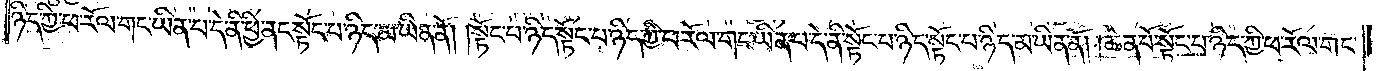ཉིད་ཀྱི་ཕ་རོལ་གང་ཡིན་པ་དེ་ནི་ཕྱི་ནང་སྟོང་པ་ཉིད་མ་ཡིན་ནོ། །སྟོང་པ་ཉིད་སྟོང་པ་ཉིད་ཀྱི་ཕ་རོལ་གང་ཡིན་པ་དེ་ནི་སྟོང་པ་ཉིད་སྟོང་པ་ཉིད་མ་ཡིན་ནོ། །ཆེན་པོ་སྟོང་པ་ཉིད་ཀྱི་ཕ་རོལ་གང་
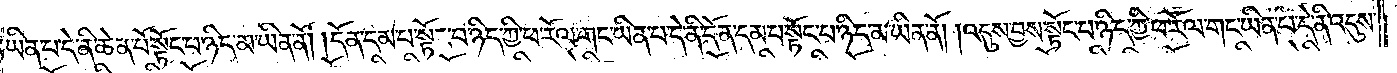ཡིན་པ་དེ་ནི་ཆེན་པོ་སྟོང་པ་ཉིད་མ་ཡིན་ནོ། །དོན་དམ་པ་སྟོང་པ་ཉིད་ཀྱི་ཕ་རོལ་གང་ཡིན་པ་དེ་ནི་དོན་དམ་པ་སྟོང་པ་ཉིད་མ་ཡིན་ནོ། །འདུས་བྱས་སྟོང་པ་ཉིད་ཀྱི་ཕ་རོལ་གང་ཡིན་པ་དེ་ནི་འདུས་
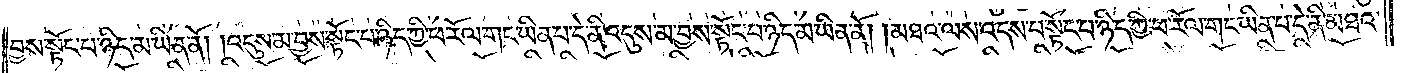བྱས་སྟོང་པ་ཉིད་མ་ཡིན་ནོ། །འདུས་མ་བྱས་སྟོང་པ་ཉིད་ཀྱི་ཕ་རོལ་གང་ཡིན་པ་དེ་ནི་འདུས་མ་བྱས་སྟོང་པ་ཉིད་མ་ཡིན་ནོ། །མཐའ་ལས་འདས་པ་སྟོང་པ་ཉིད་ཀྱི་ཕ་རོལ་གང་ཡིན་པ་དེ་ནི་མཐའ་
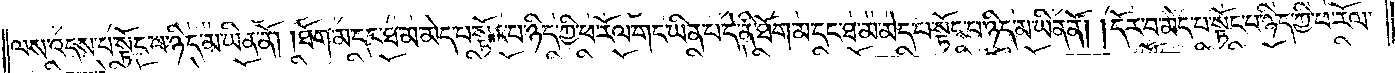ལས་འདས་པ་སྟོང་པ་ཉིད་མ་ཡིན་ནོ། །ཐོག་མ་དང་ཐ་མ་མེད་པ་སྟོང་པ་ཉིད་ཀྱི་ཕ་རོལ་གང་ཡིན་པ་དེ་ནི་ཐོག་མ་དང་ཐ་མ་མེད་པ་སྟོང་པ་ཉིད་མ་ཡིན་ནོ། །དོར་བ་མེད་པ་སྟོང་པ་ཉིད་ཀྱི་ཕ་རོལ་
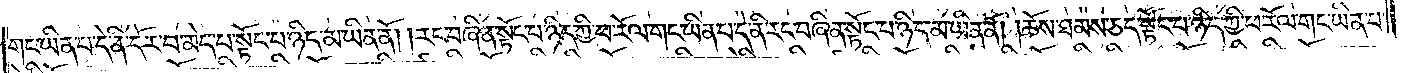གང་ཡིན་པ་དེ་ནི་དོར་བ་མེད་པ་སྟོང་པ་ཉིད་མ་ཡིན་ནོ། །རང་བཞིན་སྟོང་པ་ཉིད་ཀྱི་ཕ་རོལ་གང་ཡིན་པ་དེ་ནི་རང་བཞིན་སྟོང་པ་ཉིད་མ་ཡིན་ནོ། །ཆོས་ཐམས་ཅད་སྟོང་པ་ཉིད་ཀྱི་ཕ་རོལ་གང་ཡིན་པ་
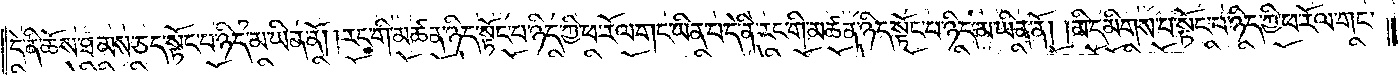དེ་ནི་ཆོས་ཐམས་ཅད་སྟོང་པ་ཉིད་མ་ཡིན་ནོ། །རང་གི་མཚན་ཉིད་སྟོང་པ་ཉིད་ཀྱི་ཕ་རོལ་གང་ཡིན་པ་དེ་ནི་རང་གི་མཚན་ཉིད་སྟོང་པ་ཉིད་མ་ཡིན་ནོ། །མི་དམིགས་པ་སྟོང་པ་ཉིད་ཀྱི་ཕ་རོལ་གང་
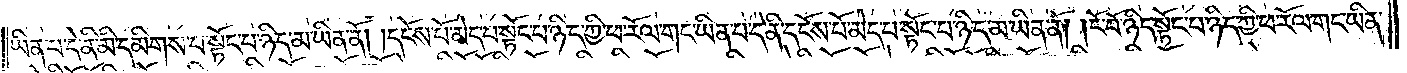ཡིན་པ་དེ་ནི་མི་དམིགས་པ་སྟོང་པ་ཉིད་མ་ཡིན་ནོ། །དངོས་པོ་མེད་པ་སྟོང་པ་ཉིད་ཀྱི་ཕ་རོལ་གང་ཡིན་པ་དེ་ནི་དངོས་པོ་མེད་པ་སྟོང་པ་ཉིད་མ་ཡིན་ནོ། །ངོ་བོ་ཉིད་སྟོང་པ་ཉིད་ཀྱི་ཕ་རོལ་གང་ཡིན་
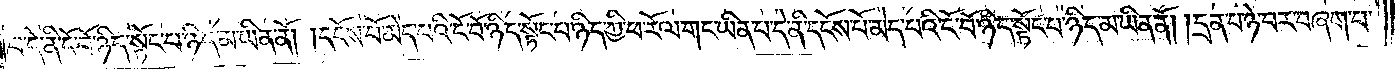པ་དེ་ནི་ངོ་བོ་ཉིད་སྟོང་པ་ཉིད་མ་ཡིན་ནོ། །དངོས་པོ་མེད་པའི་ངོ་བོ་ཉིད་སྟོང་པ་ཉིད་ཀྱི་ཕ་རོལ་གང་ཡིན་པ་དེ་ནི་དངོས་པོ་མེད་པའི་ངོ་བོ་ཉིད་སྟོང་པ་ཉིད་མ་ཡིན་ནོ། །དྲན་པ་ཉེ་བར་བཞག་པ་
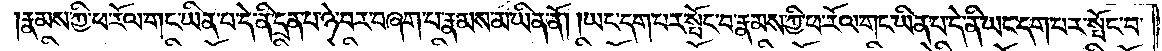རྣམས་ཀྱི་ཕ་རོལ་གང་ཡིན་པ་དེ་ནི་དྲན་པ་ཉེ་བར་བཞག་པ་རྣམས་མ་ཡིན་ནོ། །ཡང་དག་པར་སྦོང་བ་རྣམས་ཀྱི་ཕ་རོལ་གང་ཡིན་པ་དེ་ནི་ཡང་དག་པར་སྤོང་བ་
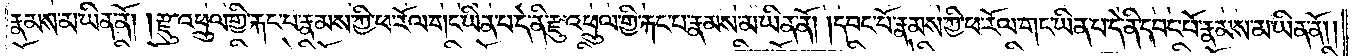རྣམས་མ་ཡིན་ནོ། །རྫུ་འཕྲུལ་གྱི་རྐང་པ་རྣམས་ཀྱི་ཕ་རོལ་གང་ཡིན་པ་དེ་ནི་རྫུ་འཕྲུལ་གྱི་རྐང་པ་རྣམས་མ་ཡིན་ནོ། །དབང་པོ་རྣམས་ཀྱི་ཕ་རོལ་གང་ཡིན་པ་དེ་ནི་དབང་པོ་རྣམས་མ་ཡིན་ནོ༎
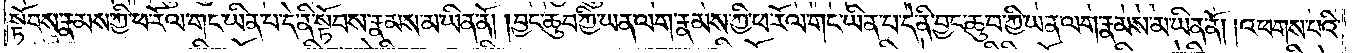སྟོབས་རྣམས་ཀྱི་ཕ་རོལ་གང་ཡིན་པ་དེ་ནི་སྟོབས་རྣམས་མ་ཡིན་ནོ། །བྱང་ཆུབ་ཀྱི་ཡན་ལག་རྣམས་ཀྱི་ཕ་རོལ་གང་ཡིན་པ་དེ་ནི་བྱང་ཆུབ་ཀྱི་ཡན་ལག་རྣམས་མ་ཡིན་ནོ། །འཕགས་པའི་
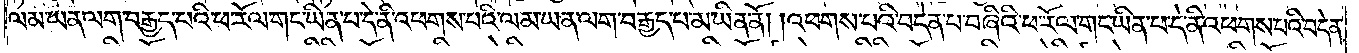ལམ་ཡན་ལག་བརྒྱད་པའི་ཕ་རོལ་གང་ཡིན་པ་དེ་ནི་འཕགས་པའི་ལམ་ཡན་ལག་བརྒྱད་པ་མ་ཡིན་ནོ། །འཕགས་པའི་བདེན་པ་བཞིའི་ཕ་རོལ་གང་ཡིན་པ་དེ་ནི་འཕགས་པའི་བདེན་
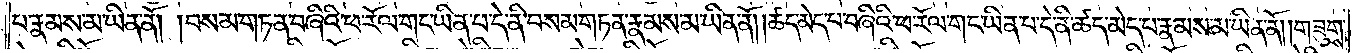པ་རྣམས་མ་ཡིན་ནོ། །བསམ་གཏན་བཞིའི་ཕ་རོལ་གང་ཡིན་པ་དེ་ནི་བསམ་གཏན་རྣམས་མ་ཡིན་ནོ། །ཚད་མེད་པ་བཞིའི་ཕ་རོལ་གང་ཡིན་པ་དེ་ནི་ཚད་མེད་པ་རྣམས་མ་ཡིན་ནོ། །གཟུགས་
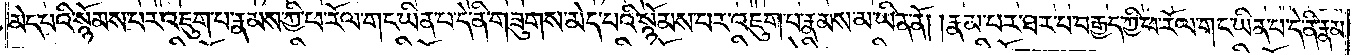མེད་པའི་སྙོམས་པར་འཇུག་པ་རྣམས་ཀྱི་ཕ་རོལ་གང་ཡིན་པ་དེ་ནི་གཟུགས་མེད་པའི་སྙོམས་པར་འཇུག་པ་རྣམས་མ་ཡིན་ནོ། །རྣམ་པར་ཐར་པ་བརྒྱད་ཀྱི་ཕ་རོལ་གང་ཡིན་པ་དེ་ནི་རྣམ་
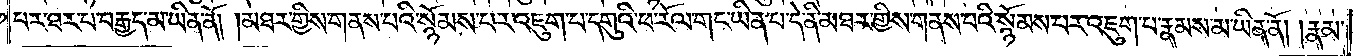པར་ཐར་པ་བརྒྱད་མ་ཡིན་ནོ། །མཐར་གྱིས་གནས་པའི་སྙོམས་པར་འཇུག་པ་དགུའི་ཕ་རོལ་གང་ཡིན་པ་དེ་ནི་མཐར་གྱིས་གནས་པའི་སྙོམས་པར་འཇུག་པ་རྣམས་མ་ཡིན་ནོ། །རྣམ་
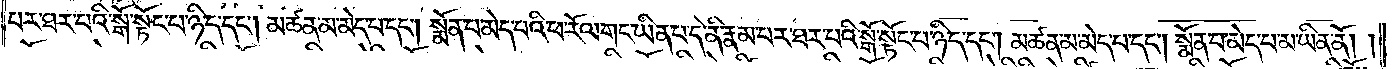པར་ཐར་པའི་སྒོ་སྟོང་པ་ཉིད་དང༌། མཚན་མ་མེད་པ་དང༌། སྨོན་པ་མེད་པའི་ཕ་རོལ་གང་ཡིན་པ་དེ་ནི་རྣམ་པར་ཐར་པའི་སྒོ་སྟོང་པ་ཉིད་དང༌། མཚན་མ་མེད་པ་དང༌། སྨོན་པ་མེད་པ་མ་ཡིན་ནོ། །
